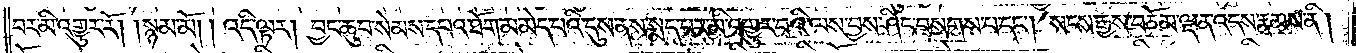བར་མི་འགྱུར་རོ། །སྙམ་མོ། །འདི་ལྟར། བྱང་ཆུབ་སེམས་དཔའ་ཐོག་མ་མེད་པའི་དུས་ནས་སྨད་པར་མི་འགྱུར་བའི་ལས་བྱས་ཤིང་བསགས་པ་དང༌། སངས་རྒྱས་བཅོམ་ལྡན་འདས་རྣམས་ནི།
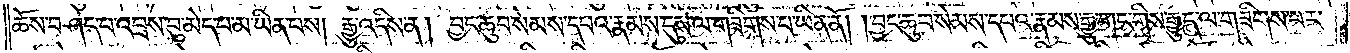ཆོས་བཤད་པ་འབྲས་བུ་མེད་པ་མ་ཡིན་པས། རྒྱུ་འདིས་ན། བྱང་ཆུབ་སེམས་དཔའ་རྣམས་དུས་ལ་གཟིགས་པ་ཡིན་ནོ། །བྱང་ཆུབ་སེམས་དཔའ་རྣམས་རྒྱུ་གང་གིས་རྒྱུད་ལ་གཟིགས་པར་
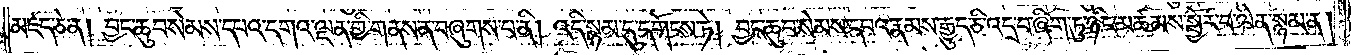མཛད་ཅེ་ན། བྱང་ཆུབ་སེམས་དཔའ་དགའ་ལྡན་གྱི་གནས་ན་བཞུགས་པ་ནི། འདི་སྙམ་དུ་དགོངས་ཏེ། བྱང་ཆུབ་སེམས་དཔའ་རྣམས་རྒྱུད་ཅི་འདྲ་བ་ཞིག་ཏུ་ཉིང་མཚམས་སྦྱོར་བ་ལེན་སྙམ་ན།
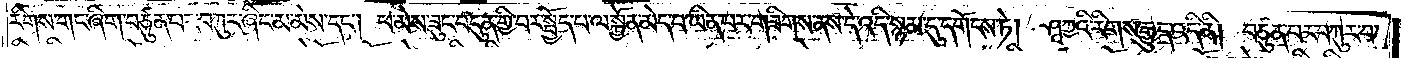རིགས་གང་ཞིག་བཙུན་པར་བཀུར་ཞིང་མ་མེས་དང༌། ཕ་མེས་ཟུང་བདུན་གྱི་བར་སྤྱོད་པ་ལ་སྐྱོན་མེད་པ་ཡིན་པར་གཟིགས་ནས་དེ་འདི་སྙམ་དུ་དགོངས་ཏེ། ཤཱཀྱའི་རིགས་རྒྱུད་འདི་ནི། བཙུན་པར་བཀུར་བ་
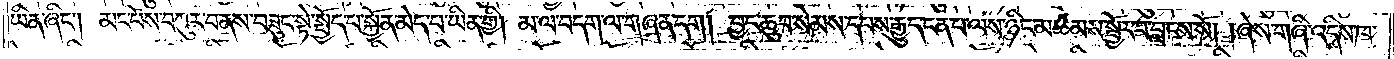ཡིན་ཞིང༌། མང་པོས་བཀུར་བ་ནས་བཟུང་སྟེ་སྤྱོད་པ་སྐྱོན་མེད་པ་ཡིན་གྱི། མ་ལ་བདག་ལ་གཞན་དག། བྱང་ཆུབ་སེམས་དཔས་རྒྱུད་ངན་པ་ལས་ཉིང་མཚམས་སྦྱོར་བ་བླངས་སོ། །ཞེས་གཞི་འདིས་ཁ་
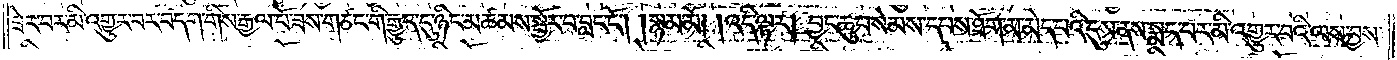ཟེར་བར་མི་འགྱུར་བར་བདག་གིས་རྒྱལ་པོ་ཟས་གཙང་གི་རྒྱུད་དུ་ཉིང་མཚམས་སྦྱོར་བ་བླང་ངོ༌། །སྙམ་མོ། །འདི་ལྟར། བྱང་ཆུབ་སེམས་དཔས་ཐོག་མ་མེད་པའི་དུས་ནས་སྨད་པར་མི་འགྱུར་བའི་ལས་བྱས་
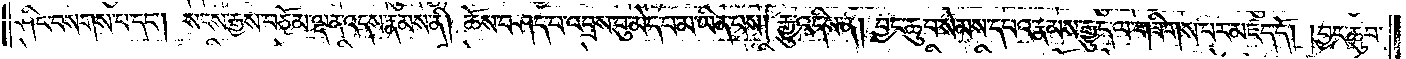ཤིང་བསགས་པ་དང༌། སངས་རྒྱས་བཅོམ་ལྡན་འདས་རྣམས་ནི། ཆོས་བཤད་པ་འབྲས་བུ་མེད་པ་མ་ཡིན་པས། རྒྱུ་འདིས་ན། བྱང་ཆུབ་སེམས་དཔའ་རྣམས་རྒྱུད་ལ་གཟིགས་པར་མཛད་དོ། །བྱང་ཆུབ་
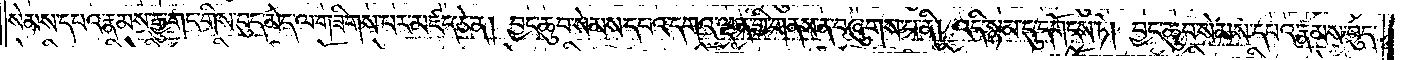སེམས་དཔའ་རྣམས་རྒྱུ་གང་གིས་བུད་མེད་ལ་གཟིགས་པར་མཛད་ཅེ་ན། བྱང་ཆུབ་སེམས་དཔའ་དགའ་ལྡན་གྱི་གནས་ན་བཞུགས་པ་ནི། འདི་སྙམ་དུ་དགོངས་ཏེ། བྱང་ཆུབ་སེམས་དཔའ་རྣམས་བུད་
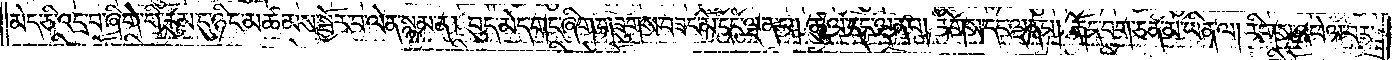མེད་ཅི་འདྲ་བ་ཞིག་གི་རུམ་དུ་ཉིང་མཚམས་སྦྱོར་བ་ལེན་སྙམ་ན། བུད་མེད་གང་ཞིག་གཟུགས་བཟང་མོ་དང་ལྡན་པ། ཚུལ་དང་ལྡན་པ། རིགས་དང་ལྡན་པ། རྒོད་བག་ཅན་མ་ཡིན་ལ། རིགས་འཕེལ་བར་
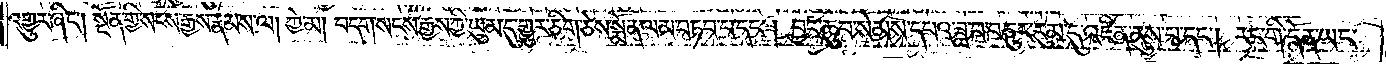འགྱུར་ཞིང༌། སྔོན་གྱི་སངས་རྒྱས་རྣམས་ལ། ཀྱེ་མ། བདག་སངས་རྒྱས་ཀྱི་ཡུམ་དུ་གྱུར་ཅིག་ཅེས་སྨོན་ལམ་བཏབ་བ་དང༌། བྱང་ཆུབ་སེམས་དཔའ་ཟླ་བ་བཅུར་རུམ་དུ་འཛིན་ནུས་པ་དང༌། རང་གི་དོན་ཡང་
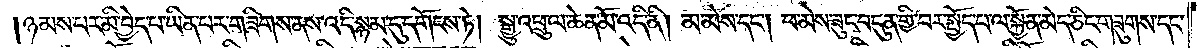ཉམས་པར་མི་བྱེད་པ་ཡིན་པར་གཟིགས་ནས་འདི་སྙམ་དུ་དགོངས་ཏེ། སྒྱུ་འཕྲུལ་ཆེན་མོ་འདི་ནི། མ་མེས་དང༌། ཕ་མེས་ཟུང་བདུན་གྱི་བར་སྤྱོད་པ་ལ་སྐྱོན་མེད་ཅིང་གཟུགས་དང་
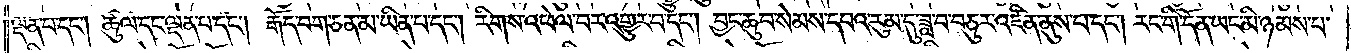ལྡན་པ་དང༌། ཚུལ་དང་ལྡན་པ་དང༌། རྒོད་བག་ཅན་མ་ཡིན་པ་དང༌། རིགས་འཕེལ་བར་འགྱུར་བ་དང༌། བྱང་ཆུབ་སེམས་དཔའ་རུམ་དུ་ཟླ་བ་བཅུར་འཛིན་ནུས་པ་དང༌། རང་གི་དོན་ཡང་མི་ཉམས་པ་
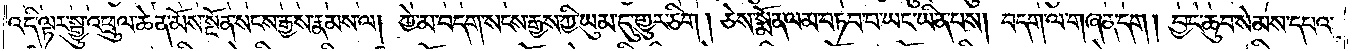འདི་ལྟར་སྒྱུ་འཕྲུལ་ཆེན་མོས་སྔོན་སངས་རྒྱས་རྣམས་ལ། ཀྱེ་མ་བདག་སངས་རྒྱས་ཀྱི་ཡུམ་དུ་གྱུར་ཅིག། ཅེས་སྨོན་ལམ་བཏབ་པ་ཡང་ཡིན་པས། བདག་ལ་གཞན་དག། བྱང་ཆུབ་སེམས་དཔའ་
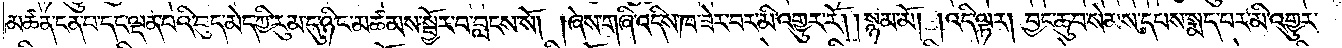མཚན་ངན་པ་དང་ལྡན་པའི་བུད་མེད་ཀྱི་རུམ་དུ་ཉིང་མཚམས་སྦྱོར་བ་བླངས་སོ། །ཞེས་གཞི་འདིས་ཁ་ཟེར་བར་མི་འགྱུར་རོ། །སྙམ་མོ། །འདི་ལྟར། བྱང་ཆུབ་སེམས་དཔས་སྨད་པར་མི་འགྱུར་
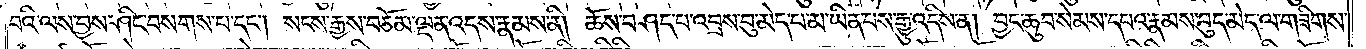བའི་ལས་བྱས་ཤིང་བསགས་པ་དང༌། སངས་རྒྱས་བཅོམ་ལྡན་འདས་རྣམས་ནི། ཆོས་བཤད་པ་འབྲས་བུ་མེད་པ་མ་ཡིན་པས་རྒྱུ་འདིས་ན། བྱང་ཆུབ་སེམས་དཔའ་རྣམས་བུད་མེད་ལ་གཟིགས་
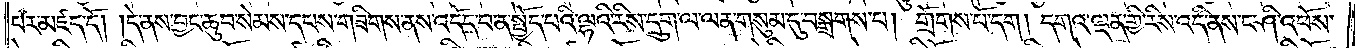པར་མཛད་དོ། །དེ་ནས་བྱང་ཆུབ་སེམས་དཔས་གཟིགས་ནས་འདོད་པ་ན་སྤྱོད་པའི་ལྷའི་རིས་དྲུག་ལ་ལན་གསུམ་དུ་བསྒྲགས་པ། གྲོགས་པོ་དག །དགའ་ལྡན་གྱི་རིས་འདི་ནས་ང་ཤི་འཕོས་
